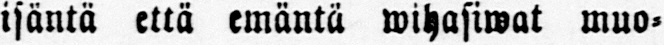isäntä että emäntä wihasiwat muo-
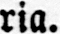ria.
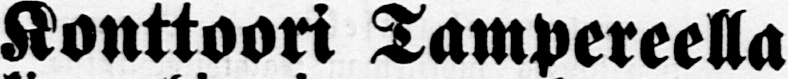Konttoori Tampereella
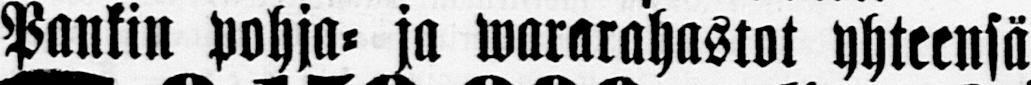Paulin pohja-ja warahastot yhteensä
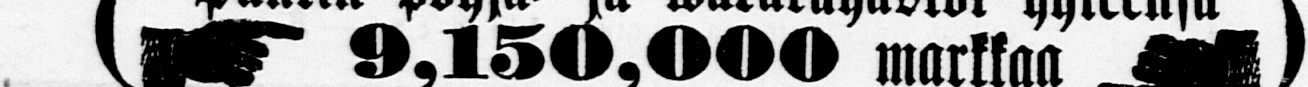9,150,000 markkaa
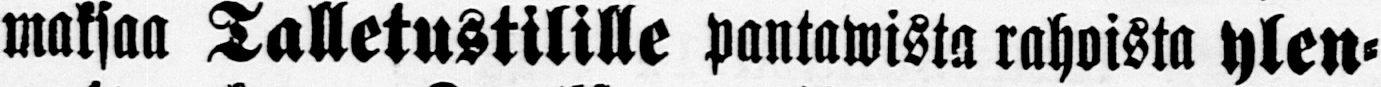maksaa Talletustilille pantalvista rahoista ylen-
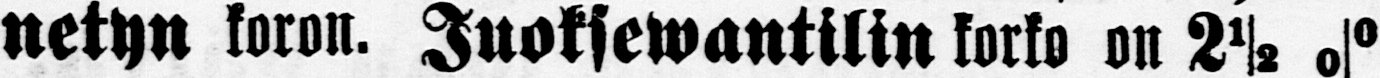netyn koron. Juoksewantilin korko on 2½ %
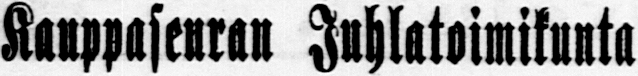Kauppaseuran Juhlatoimikunta
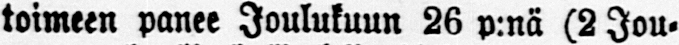toimeen panee Joulukuun 26 p:nä (2 Jou-
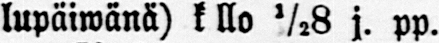lupäiwänä) k llo ½/8 j. pp.
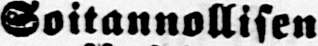Soitannollisen
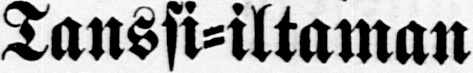Tanssi-iltaman
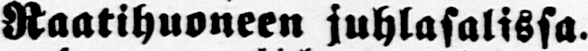Raatihuoneen juhlasalissa.
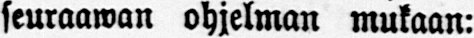seuraawan ohjelman mukaan:
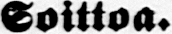Soittoa.
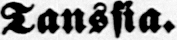Tanssia.
